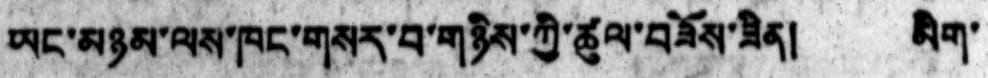ཡང་མཉམ་ལས་ཁང་གསར་བ་གཉིས་ཀྱི་ཚུལ་བཟོས་ཟིན། མིག་
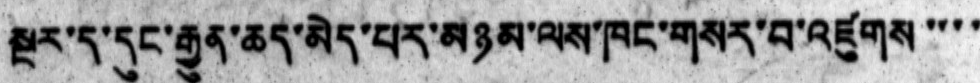སྔར་ད་དུང་རྒྱུན་ཆད་མེད་པར་མཉམ་ལས་ཁང་གསར་བ་འཛུགས་་་་
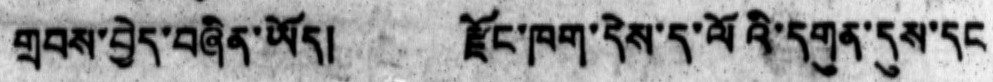གྲབས་བྱེད་བཞིན་ཡོད། རྫོང་ཁག་དེས་ད་ལོའི་དགུན་དུས་དང
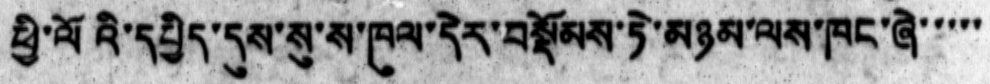ཕྱི་ལོའི་དཔྱིད་དུས་སུ་ས་ཁུལ་དེར་བསྡོམས་ཏེ་མཉམ་ལས་ཁང་ཞེ་་་་་
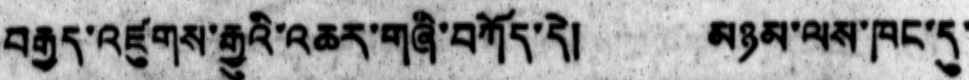བརྒྱད་འཛུགས་རྒྱུའི་འཆར་གཞི་བཀོད་དེ། མཉམ་ལས་ཁང་དུ་
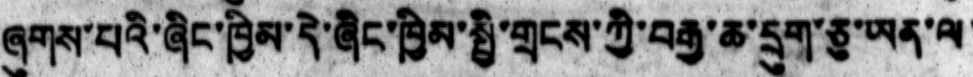ཞུགས་པའི་ཞིང་ཁྱིམ་དེ་ཞིང་ཁྱིམ་སྤྱི་གྲངས་ཀྱི་བརྒྱ་ཆ་དྲུག་ཅུ་ཡན་ལ་
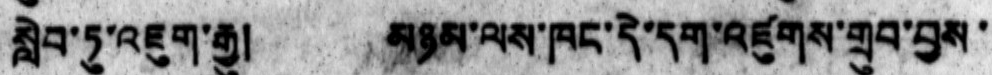སླེབ་ཏུ་འཇུག་རྒྱུ།  མཉམ་ལས་ཁང་དེ་དག་འཛུགས་གྲུབ་བྱས་
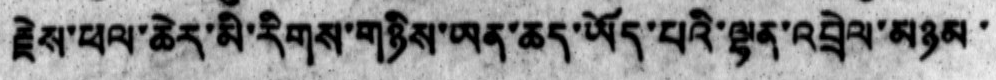རྗེས་ཕལ་ཆེར་མི་རིགས་གཉིས་ཡན་ཆད་ཡོད་པའི་ལྷན་འབྲེལ་མཉམ་
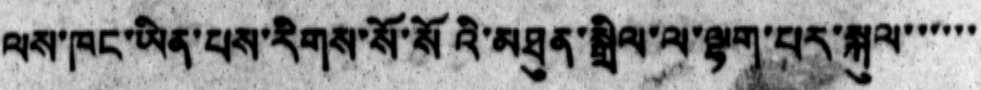ལས་ཁང་ཡིན་པས་རིགས་སོ་སོའི་མཐུན་སྒྲིལ་ལ་ལྷག་པར་སྐུལ་་་་་་
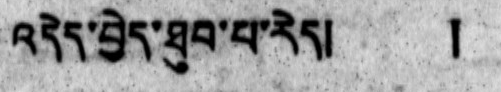འདེད་བྱེད་ཐུབ་པ་རེད།
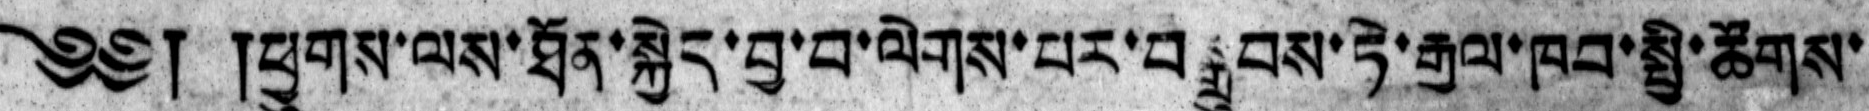༄༅། །ཕྱུགས་ལས་ཐོན་སྐྱེད་བྱ་བ་ལེགས་པར་བསྒྲུབས་ཏེ་རྒྱལ་ཁབ་སྤྱི་ཚོགས་
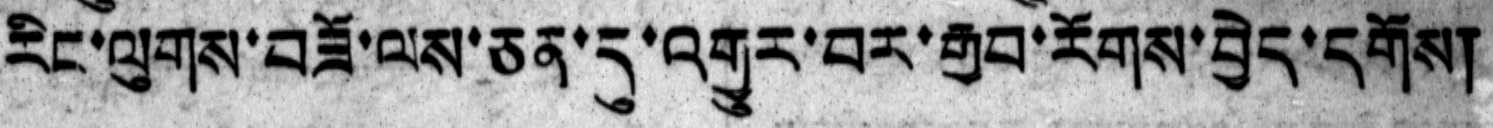རིང་ལུགས་བཟོ་ལས་ཅན་དུ་འགྱུར་བར་རྒྱབ་རོགས་བྱེད་དགོས།
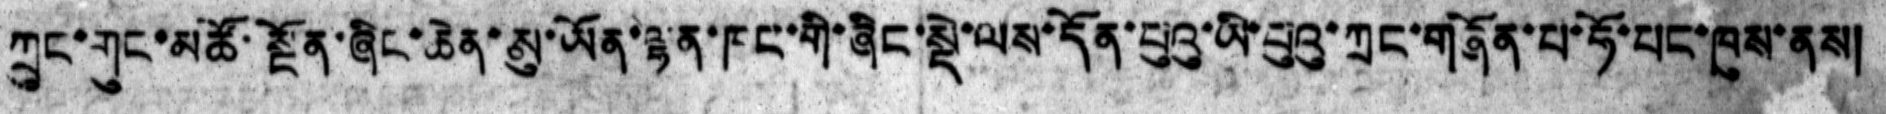ཀྲུང་གུང་མཚོ་སྔོན་ཞིང་ཆེན་ཨུ་ཡོན་ལྷན་ཁང་གི་ཞིང་སྡེ་ལས་དོན་པུའུ་ཡི་པུའུ་ཀྲང་གཞོན་པ་ཧོ་པང་ཁུས་ནས།
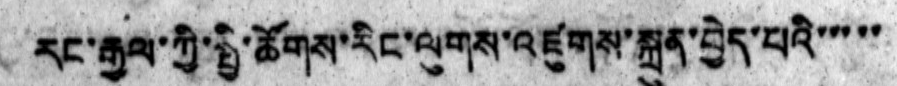རང་རྒྱལ་ཀྱི་སྤྱི་ཚོགས་རིང་ལུགས་འཛུགས་སྐྲུན་བྱེད་པའི་་་་་
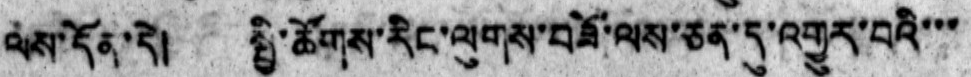ལས་དོན་དེ། སྤྱི་ཚོགས་རིང་ལུགས་བཟོ་ལས་ཅན་དུ་འགྱུར་བའི་་་
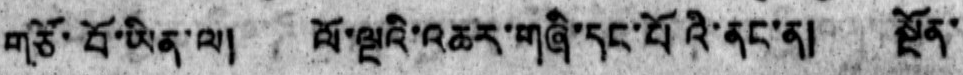གཙོ་བོ་ཡིན་ལ། ལོ་ལྔའི་འཆར་གཞི་དང་པོའི་ནང་ན། སྔོན་
